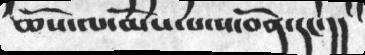ཆོས་ལ་མོས་པ་ས་བོན་དང་།།
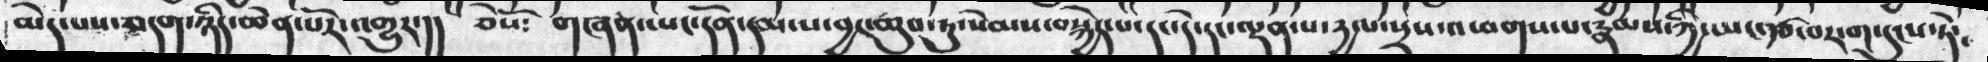མེད་པས་བདག་ཉིད་ཆེན་པོར་འགྱུར་།།  ཅེསོ༴ གཞན་ཡང་དོན་དམ་པ་བྱང་ཆུབ་ཏུ་སེམས་བསྐྱེད་པ་དང་དེ་དང་ལྡན་པ་རྱལ་སྲས་འཕགས་པ་རྣམས་ཀྱི་ཡང་རྩ་བར་གསུངས་ཏེ༴
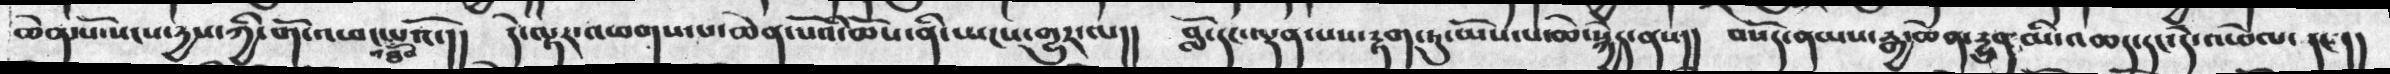ཆེན་པོ་སངས་དྱས་ཀྱི་གོ་འཕང་འཐོབ་པའོ་།།   དེ་ལྟར་འཕགས་པ་ཆེན་པོའི་ཆོས་ནི་ཡངས་གྱུར་ལ།། བློ་དང་ལྡན་པས་རྟག་ཏུ་མོས་པ་ཆ་སྐྱེད་ནས།།  བསོད་ནམས་རྒྱ་ཆེན་དྱུན་མ་འཆད་དང་དེ་འཕེལ་  དང་།།
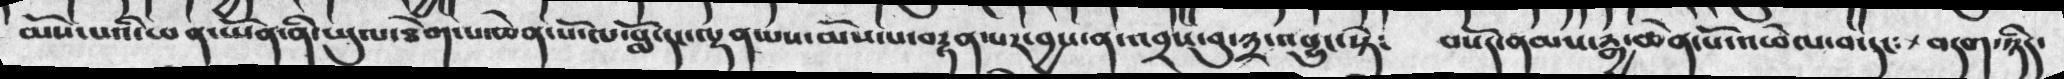མོས་པའི་ཕན་ཡོན་ནི་ཡུལ་ཐེག་པ་ཆེན་པོ་ལ་བློདང་ལྡན་པས་མོས་པ་བརྟན་པར་བྱས་ན་འབྲས་བུ་༣་འབྱུང་སྟེ༴   བསོད་ནམས་རྒྱ་ཆེན་པོ་འཕེལ་བ་དང་+ བདག་ཉིད་
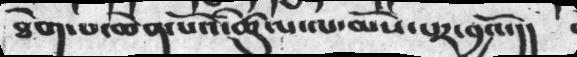ཐེག་པ་ཆེན་པོའི་ཚུལ་ལ་མོས་པར་བྱའོ་།།
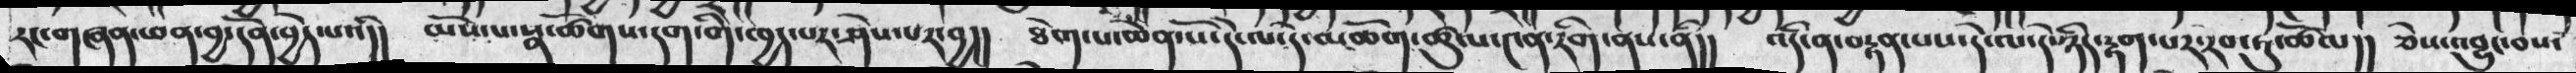རང་གཞན་ཕན་བྱ་དོན་བྱེད་པའི།། མོས་པ་སྣ་ཚོགས་དག་གི་ཁྱད་པར་ཤེས་པར་བྱ།། ཐེག་པ་ཆེན་པོ་དེ་ལ་དེ་མཆོག་ཚུལ་༤ན་རིག་ནས་ནི།། འདི་ན་བརྟན་པས་དེ་ལ་དེ་ཉིད་རྟག་པར་རབ་ཏུ་ཆོལ།། ཅེས་འབྱུང་བས་
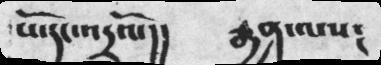པོ་དང་འདྲའོ་།།  རྒྱན་ལས༴
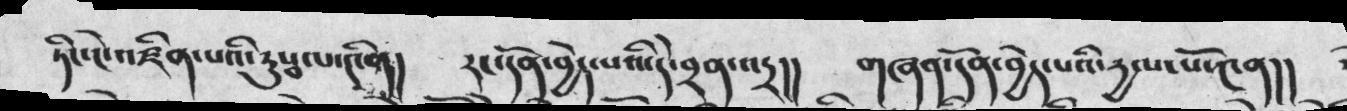ཏིང་ངེ་འཛིན་པའི་རུསྦལ་༤ིན། རང་དོན་བྱེད་པའི་དེ་བྲན་འདྲ།། གཞན་དོན་བྱེད་པའི་རྱལ་པོ་༤ན།།
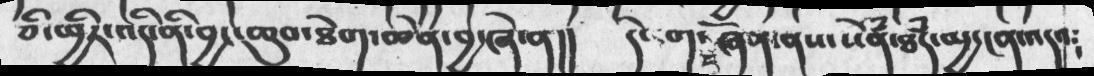ཅི་ཕྱིར་འདི་ནི་བྱང་ཆུབ་ཐེག་ཆེན་བྱ་ཞེ་ན།།   དེ་དག་བཞོན་ནས་སེཾན་ཐཾད་མྱ་ངན་འདའ༴
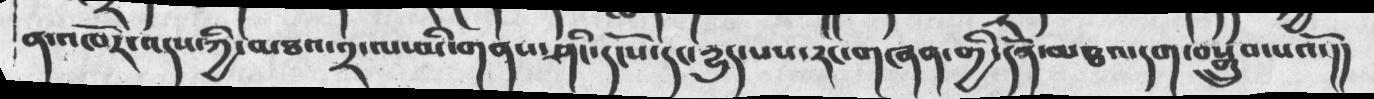ན་འཁོར་འདས་ཀྱི་མཐའ་༢་ལ་མི་གནས་ཤིང་དངོས་དང་རྱུད་པས་རང་གཞན་གྱི་དོན་མཐའ་དག་བསྒྲུབ་པའོ་།།
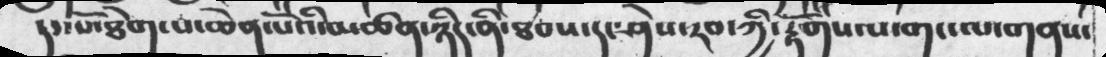དང་པོ་ཐེག་པ་ཆེན་པོའི་མཚན་ཉིད་ནི་ཐབས་དང་ཤེས་རབ་ཀྱི་རྟོགས་པ་གང་ལ་གནས་
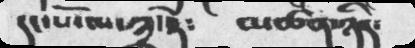དང་པོ་ལ་༣་སྟེ༴   མཚན་ཉིད༴
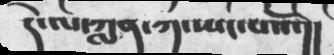དེ་ལ་ཀླན་ཀ་ཡང་པའོ་།།
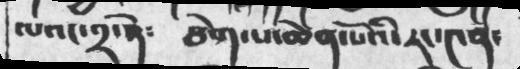ལའང་༢་སྟེ༴  ཐེག་པ་ཆེན་པོའི་རང་༤ན༴
